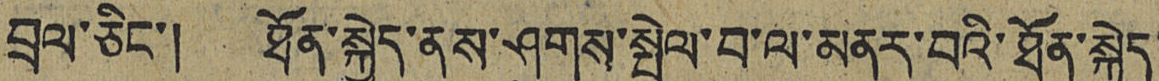བྲལ་ཅིང་། ཐོན་སྐྱེད་ནུས་ཤུགས་སྤེལ་བ་ལ་མནར་བའི་ཐོན་སྐྱེད་
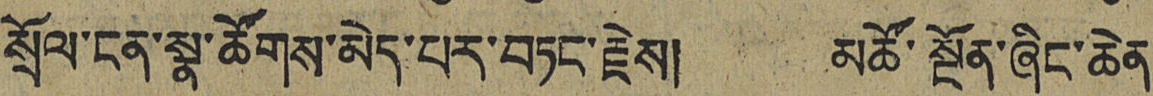སྲོལ་ངན་སྣ་ཚོགས་མེད་པར་བཏང་རྗེས། མཚོ་སྔོན་ཞིང་ཆེན་
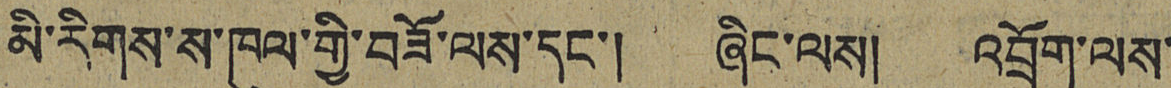མི་རིགས་ས་ཁུལ་གྱི་བཟོ་ལས་དང་། ཞིང་ལས། འབྲོག་ལས་
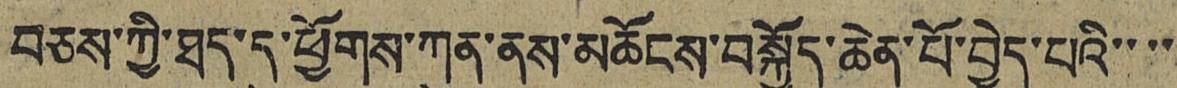བཅས་ཀྱི་ཐད་དུ་ཕྱོགས་ཀུན་ནས་མཆོངས་བསྐྱོད་ཆེན་པོ་བྱེད་པའི་་་་
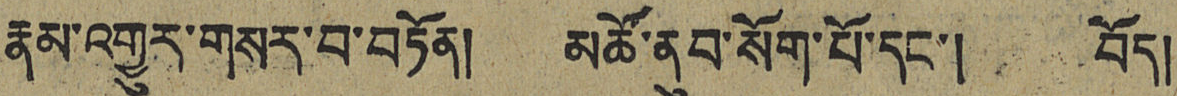རྣམ་འགྱུར་གསར་བ་བཏོན། མཚོ་ནུབ་སོག་པོ་དང་། བོད།
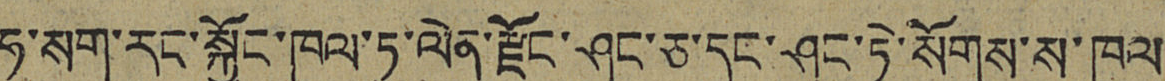ཧ་སག་རང་སྐྱོང་ཁུལ་ཏུ་ལེན་རྫོང་ཤང་ཅ་དང་ཤང་ཏེ་སོགས་ས་ཁུལ
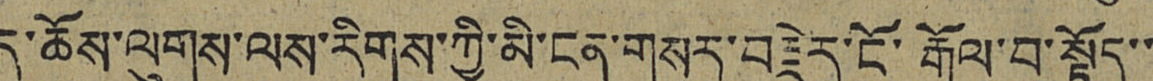དུ་ཆོས་ལུགས་ལས་རིགས་ཀྱི་མི་ངན་གསར་བརྗེར་ངོ་རྒོལ་བ་སྟོད་་
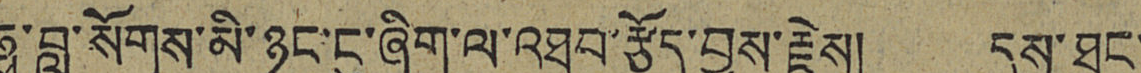ཧྥུ་བླ་སོགས་མི་ཉུང་ངུ་ཞིག་ལ་འཐབ་རྩོད་བྱས་རྗེས། དུས་ཐུང་
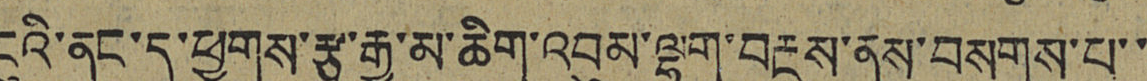ངུའི་ནང་དུ་ཕྱུགས་རྩྭ་རྒྱ་མ་ཆིག་འབུམ་ལྷག་བརྔས་ནས་བསགས་པ་་
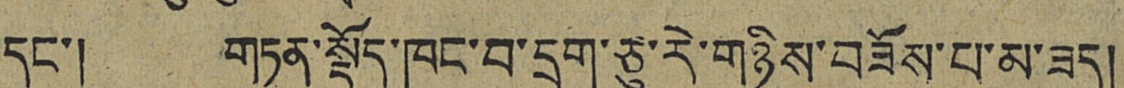དང་། གཏན་སྡོད་ཁང་བ་དྲུག་ཅུ་རེ་གཉིས་བཟོས་པ་མ་ཟད།
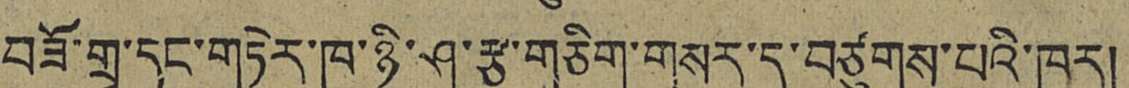བཟོ་གྲྭ་དང་གཏེར་ཁ་ཉི་ཤུ་རྩ་གཅིག་གསར་དུ་བཙུགས་པའི་ཁར།
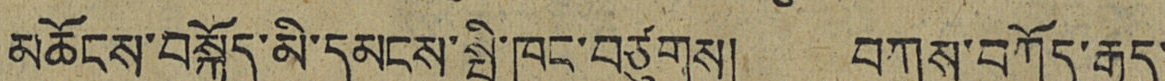མཆོངས་བསྐྱོད་མི་དམངས་སྤྱི་ཁང་བཙུགས། བཀས་བཀོད་རྒྱུད་
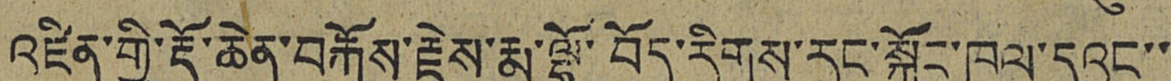འཛིན་གྱི་རྡོ་ཆེན་བརྐོས་རྗེས་རྨ་ལྷོ་བོད་རིགས་རང་སྐྱོང་ཁུལ་དུའང་་
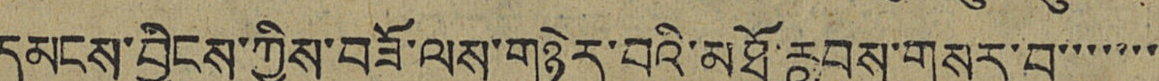དམངས་བྱིངས་ཀྱིས་བཟོ་ལས་གཉེར་བའི་མཐོ་རླབས་གསར་བ་་་་་་་
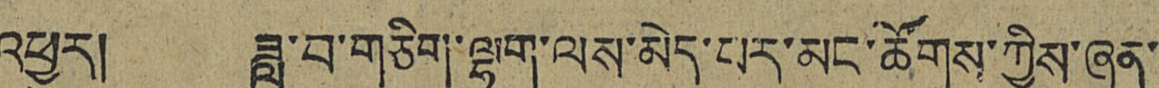འཕྱུར། ཟླ་བ་གཅིག་ལྷག་ལས་མེད་པར་མང་ཚོགས་ཀྱིས་ཞན་
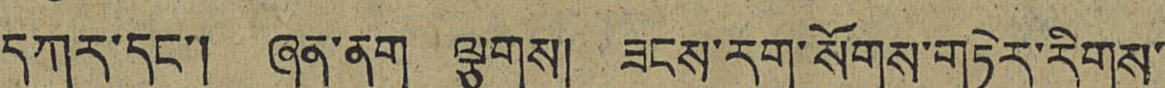དཀར་དང་། ཞན་ནག ལྕགས། ཟངས་རག་སོགས་གཏེར་རིགས་
